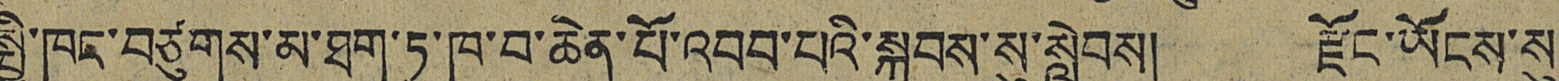སྤྱི་ཁང་བཙུགས་མ་ཐག་ཏུ་ཁ་བ་ཆེན་པོ་འབབ་པའི་སྐབས་སུ་སླེབས། རྫོང་ཡོངས་སུ་
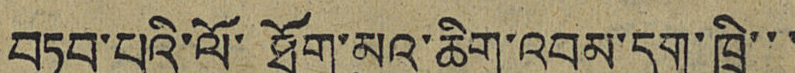བཏབ་པའི་ལོ་ཐོག་མུའུ་ཆིག་འབུམ་དགུ་ཁྲི་་་
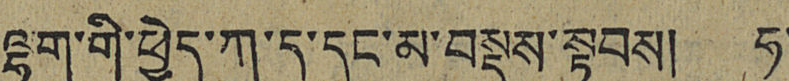ལྷག་གི་ཕྱེད་ཀ་ད་དུང་མ་བསྡུས་སྟབས། ཧ་
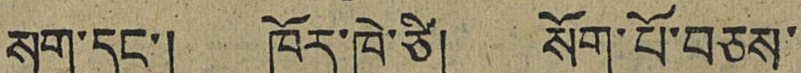སག་དང་། ཁོར་ཁེ་ཙི། སོག་པོ་བཅས་
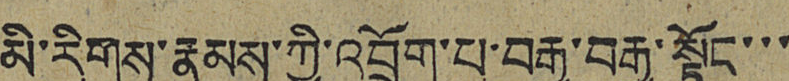མི་རིགས་རྣམས་ཀྱི་འབྲོག་པ་བརྒྱ་བརྒྱ་སྟོང་་་
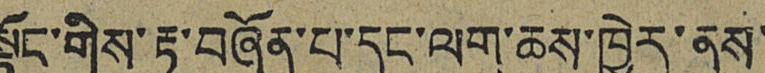སྟོང་གིས་རྟ་བཞོན་པ་དང་ལག་ཆས་ཁྱེར་ནས་
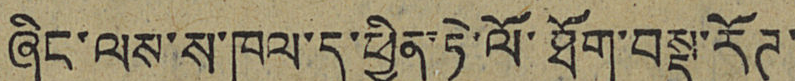ཞིང་ལས་ས་ཁུལ་དུ་ཕྱིན་ཏེ་ལོ་ཐོག་བསྡུ་རོཊ་
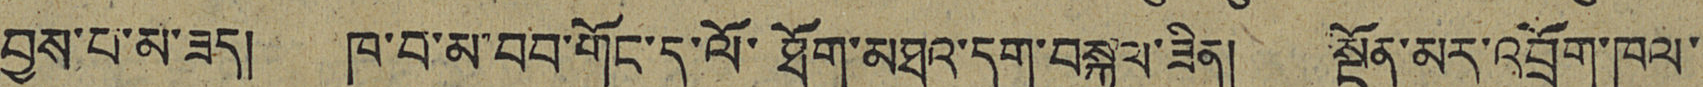བྱས་པ་མ་ཟད། ཁ་བ་མ་བབ་གོང་དུ་ལོ་ཐོག་མཐའ་དག་བསྐྱལ་ཟིན། སྔོན་མར་འབྲོག་ཁུལ་
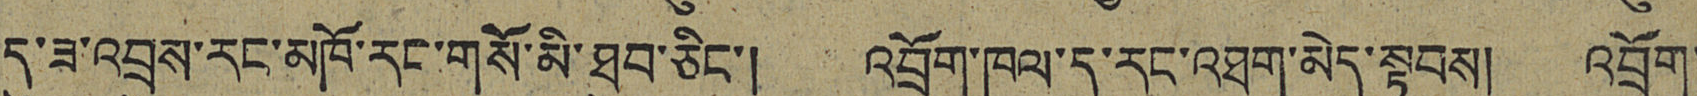དུ་ཟ་འབྲུས་རང་མཁོ་རང་གསོ་མི་ཐུབ་ཅིང་། འབྲོག་ཁུལ་དུ་རང་འཐག་མེད་སྟབས། འབྲོག་
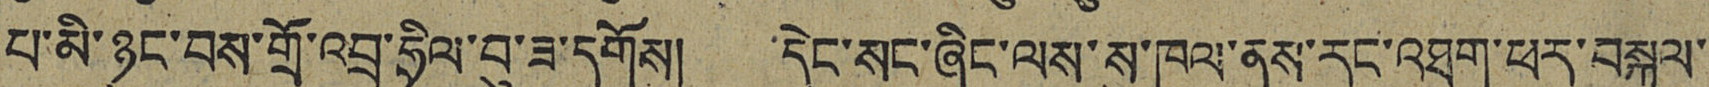པ་མི་ཉུང་བས་གྲོ་འབྲུ་ཧྲིལ་བུ་ཟ་དགོས། དེང་སང་ཞིང་ལས་ས་ཁུལ་ནས་རང་འཐག་ཕར་བསྐྱལ་
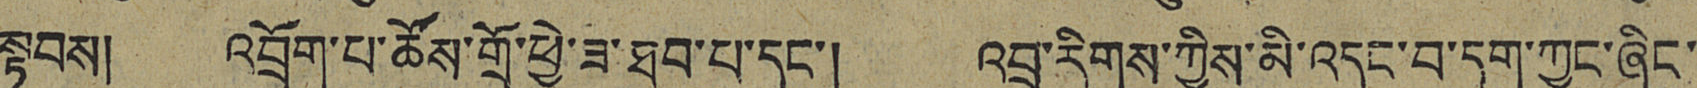སྟབས། འབྲོག་པ་ཚོས་གྲོ་ཕྱེ་ཟ་ཐུབ་པ་དང་། འབྲུ་རིགས་ཀྱིས་མི་འདང་བ་དག་ཀྱང་ཞིང་
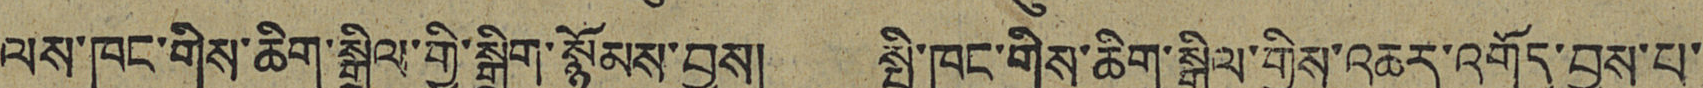ལས་ཁང་གིས་ཆིག་སྒྲིལ་གྱི་སྒྲིག་སྙོམས་བྱས། སྤྱི་ཁང་གིས་ཆིག་སྒྲིལ་གྱིས་འཆར་འགོད་བྱས་པ་
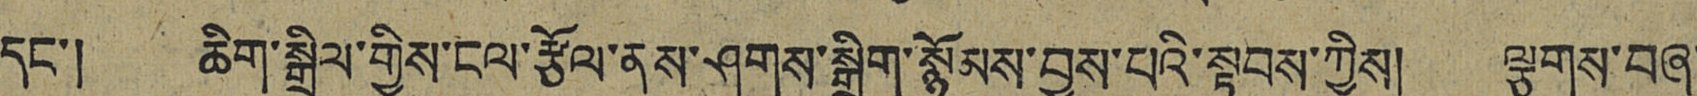དང་། ཆིག་སྒྲིལ་གྱིས་ངལ་རྩོལ་ནུས་ཤུགས་སྒྲིག་སྙོམས་བྱས་པའི་སྟབས་ཀྱིས། ལྕགས་བཞུ་
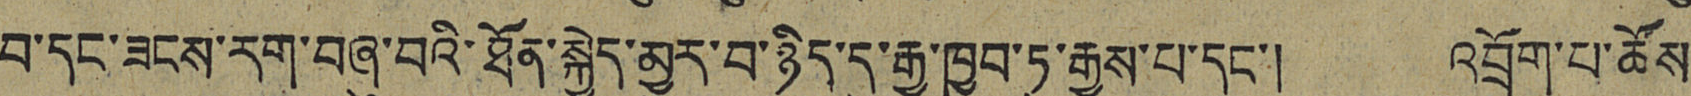བ་དང་ཟངས་རག་བཞུ་བའི་ཐོན་སྐྱེད་མྱུར་བ་ཉིད་དུ་རྒྱ་ཁྱབ་ཏུ་རྒྱས་པ་དང་། འབྲོག་པ་ཚོས་
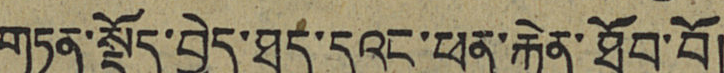གཏན་སྡོད་བྱེད་ཐད་དུའང་ཕན་རྐྱེན་ཐོབ་བོ།
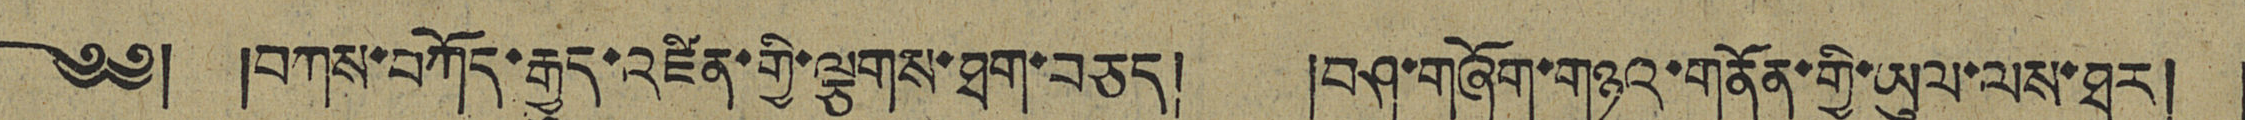༄༅། །བཀས་བཀོད་རྒྱུད་འཛིན་གྱི་ལྕགས་ཐག་བཅད། །བཤུ་གཞོག་གཉའ་གནོན་གྱི་ཡུལ་ལས་ཐར། །
